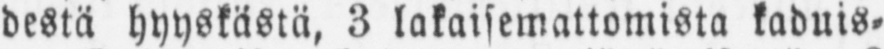destä hyyskästä, 3 lakaisemattomista kaduis-
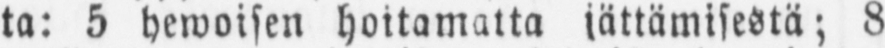ta: 5 hewoisen hoitamatta jättämisestä; 8
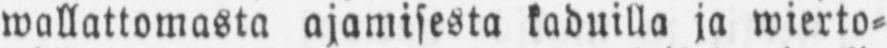wallattomasta ajamisesta kaduilla ja wierto-
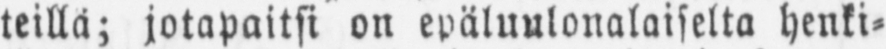teillä; jotapaitsi on epäluulonalaiselta henki-
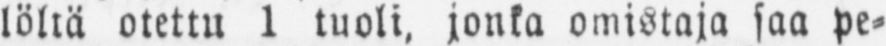löltä otettu 1 tuoli, jonka omistaja saa pe-
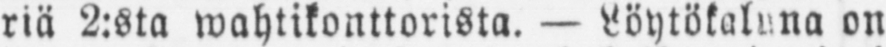riä 2:sta wahtikonttorista. — Löytökaluna on
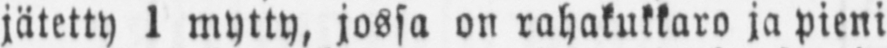jätetty 1 mytty, jossa on rahakukkaro ja pieni
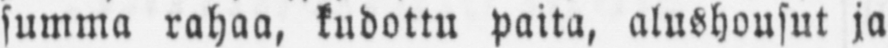summa rahaa, kudottu paita, alushousut ja
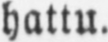hattu.
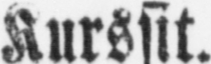Kurssit.
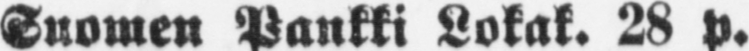Suomen Pankki Lokak. 28 p.
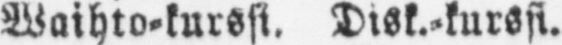Waihto-kurssi. Disk.-kurssi.
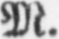M.
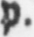p.
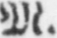M.
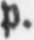p.
